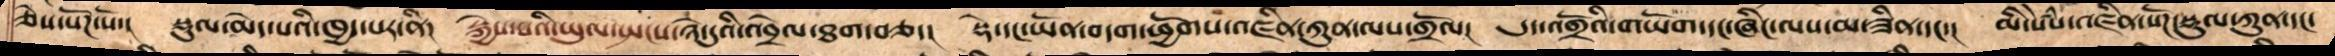ཅེས་སོཌ་སོ་།  སྡུལ་མེད་པའི་ཁྱད་པར་ནི།  སྐྱེས་པའི་ཡུལ་སྤངས་ཉེ་དུའི་འབྲེལ་ཐག་བཅད།  སྡེ་དང་ཡོན་བདག་ཕྱོགས་འཛིན་ཀུན་ལས་གྲོལ།  དུད་འགྲོའི་གཡོག་དང་ཞིང་ལས་མ་ཟིན་དང་།  མི་སེཾས་འཛིན་སོཌ་སྡུལ་ཀུན་དང་
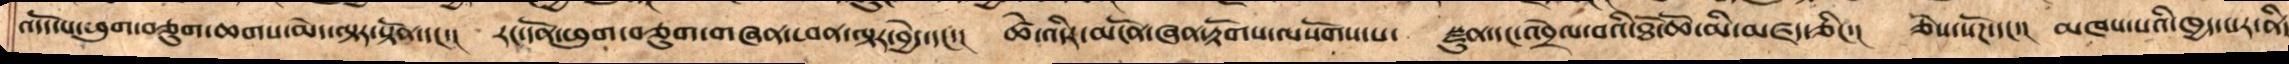འདོད་པ་ཕུག་བཅུག་ཆགས་མེད་ལྟར་སྟོན་དང་།  རང་དོན་ཕུག་བཅུག་གཞན་ཕན་ལྟར་བྱེད་དང་།   ཚེ་འདིར་མངོན་ཞན་རྟོགས་ལ་སོགས་པ།   སྫུན་དང་འབྲེལ་བའི་ཐོ་ཅོ་མི་མཛད་ཅིང་།  ཅེས་སོཌ་དང་།  མཁས་པའི་ཁྱད་པར་ནི།
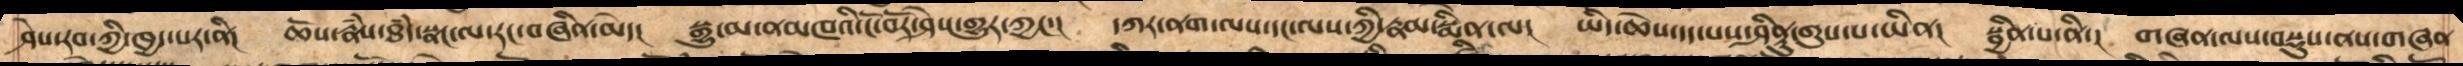ཤེས་རབ་ཀྱི་ཁྱད་པར་ནི། ཆོས་རྣྃས་ཐྃད་སྣང་ལ་རང་བཞིན་མེད།  སྒྱུ་མ་ནམམཁའི་ངོ་བོར་ཤེས་གྱུར་ཀྱང་།  དཀར་ནག་ལས་དང་ལས་ཀྱི་རྣམ་སྨིན་ལ།  ཡིད་ཆེས་དད་པས་ཤིནྟུ་གུས་པ་ཡིན།   སྦྱིན་པ་ནི།  གཞན་ལས་བསྡུས་ནས་གཞན
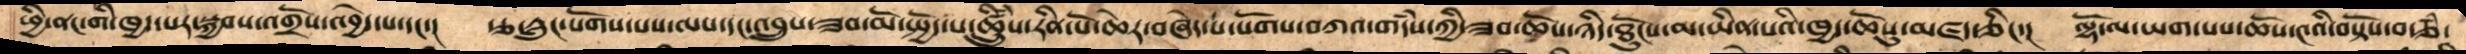ཕྱི་ནང་གི་ཁྱད་པར་སྐྱབས་འགྲོས་འབྱེད་པ་དང་།  རྩ་རླུང་སོགས་པས་ལས་དང་འབྲུས་ཟབ་མོ་སྤྱོད་པ་ཚྲིུཾས་རིན་པོ་ཆེར་བཞེད་པ་སོགས་བཀའ་གདཾས་ཀྱི་ཟབ་ཆོས་ཉིད་ཐོུངས་མ་ཡིན་པའི་ཁྱད་ཆོསུ་མཛད་ཅིང་།   ལྷོ་ལ་ཡག་པས་ཆོས་༤འི་བསྟོས་བ་ཙཾ་
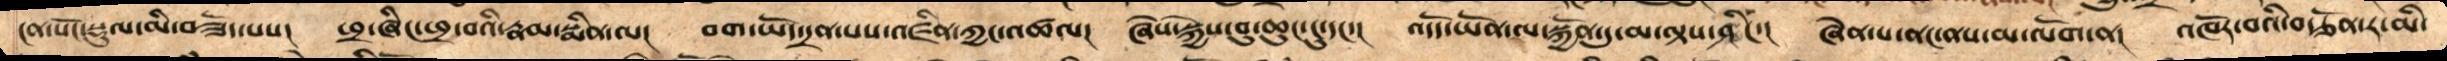ངན་སོང་སྡུལ་མི་བཟོད་པས།  ཕྲ་ཞིང་ཕྲ་བའི་རྣམ་སྨིན་ལ།   བག་ཡོད་དྲན་པས་ཟིན་ཀྱང་འཚལ།   ཞེས་སྐྱེས་བུ་ཆུང་ངུ་དང་།  འདོད་ཡོན་ལ་སྐྱོན་དུ་མ་ལྟས་ཤིང་།  ཞེན་པ་ནང་ནས་མ་ལོག་ན།  འཁོར་བའི་བརྩོན་ར་མི་
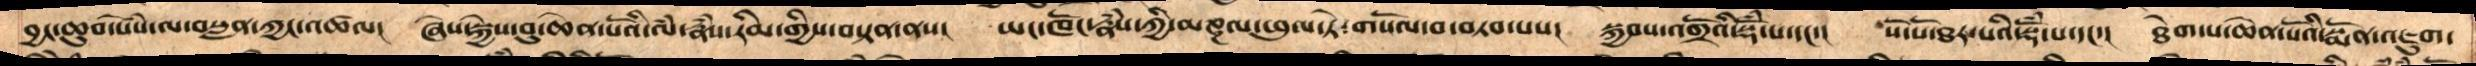བྱང་ཆུབ་སེཾས་ལ་བསླན་ཀྱང་འཚལ།    ཞེས་སྐྱེས་བུ་ཆེན་པོའི་ལཾ་རྣཾས་རིམ་གྱིས་བསྟན་ནས།    ཡང་ཁོང་རྣཾས་ཀྱི་མཎྜལ་ཕུལ་ཏེ་གསོལ་བ་བཏབ་པས།    སྐྱབས་འགྲོའི་སྡོཾ་པ་དང་།    སོ་སོ་ཐར་པའི་སྡོཾ་པ་དང་།   ཐེག་པ་ཆེན་པོའི་སྨོན་འཇུག་
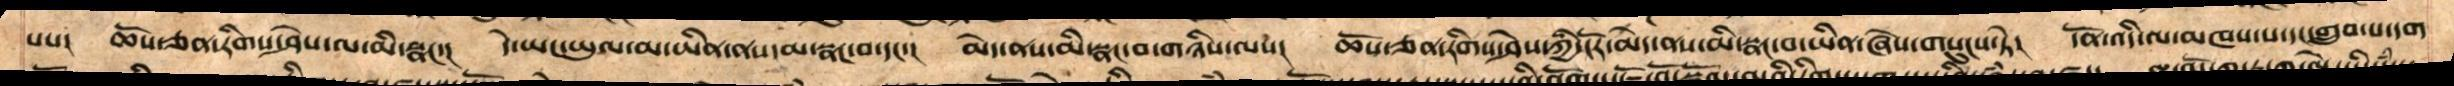པས།   ཆོས་ཅན་རིགས་ཤེས་ལ་མི་སྣང་།   དེ་ཡང་ཡུལ་མ་ཡིན་ནས་མི་སྣང་བ་དང་།   མེད་ནས་མི་སྣང་བ་གཉིས་ལས།   ཆོས་ཅན་རིག་ཤེས་ཀྱི་ངོར་མེད་ནས་མི་སྣང་བ་ཡིན་ཞེས་གསུངས་ཏེ།  དོན་འདི་ལ་མཁས་པ་དང་གྲུབ་པ་དག
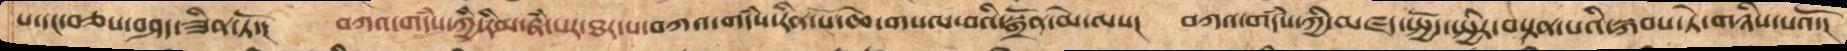པ་དང་བཅས་པ་བཤད་ཟིན་ཏོ་།   བཀའ་གདཾས་ཀྱི་རིམ་རྣཾ་པར་ཐར་པ་བཀའ་གདཾས་རིན་པོ་ཆེ་གསལ་བའི་སྒྲོན་མེ་ལས།   བཀའ་གདཾས་ཀྱི་མཛད་སྤྱོད་སྤྱིར་བསྟན་པའི་སྐབས་ཏེ་གཉིས་པའོ་།
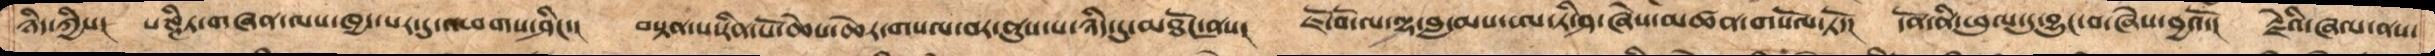ཉིད་ཀྱིས།   པཎྜིཏ་གཞན་ལས་ཁྱད་པར་དུ་འཕགས་ཤིང་།   བསྟན་པ་རིན་པོ་ཆེས་ཆེར་གསལ་བར་ནུས་པ་ཉིད་དུ་མཐོང་ནས།   ཇོ་བོ་ལ་ལྷ་བླ་མས་ཨ་ཏི་ཤ་ཞེས་མཚན་གསོལ་ཏེ་།   དོན་ནི་ཕུལ་དུ་བྱུང་བ་ཞེས་བྱ་བའོ།  རྗེའི་ཞལ་ནས་
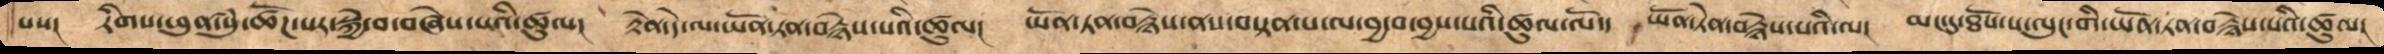པས།  རིགས་ཕུན་སུཾ་ཚོགས་པར་སྐྱེ་བ་བཞེས་པའི་ཚུལ།   རྟེན་དེ་ལ་ཡོན་ཏན་བརྙེས་པའི་ཚུལ།  ཡོན་ཏན་བརྙེས་ནས་བསྟན་པ་ལ་བྱ་བ་བྱས་པའི་ཚུལ་ལོ།   ཡོན་ཏེན་བརྙེས་པའི་ལ།  མང་དུ་ཐོས་པ་ལུང་གི་ཡོན་ཏན་བརྙེས་པའི་ཚུལ།
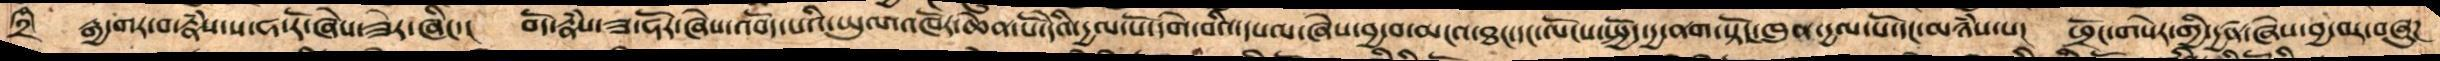༼༢༽ རྒྱ་གར་བ་རྣཾས་ས་ཧ་རོ་ཞེས་ཟེར་ཞིང་།    བོད་རྣཾས་ཟ་ཧོར་ཞེས་འབོད་པའི་ཡུལ་འཁོར་ཆེན་པོ་དེའི་དྱལ་པོ་དགེ་བའི་དཔལ་ཞེས་བྱ་བ་མངའ་ཐང་དང་ལོངས་སྤྱོད་དྱ་ནག་སྟོང་ཁུན་རྒྱལ་པོ་དང་མཉཾས་པ།  ཕྲོང་གསེར་གྱི་དྱཚན་ཞེས་བྱ་བར་བཞུཌ
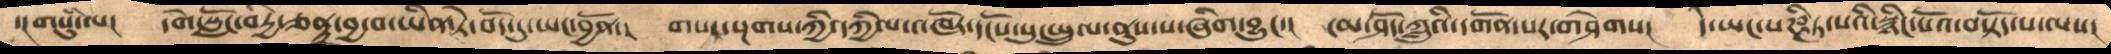་།གསུཾ་པ།  དགེ་སློང་བིརྱ་ཙཎྡྲ་བྱ་བ་ཡིན་ཏེ་བོད་དུ་ཡང་བྱོན་།   གསང་སྔགས་ཀྱི་དཀྱིལ་འཁོར་དངོས་སུ་སྤྲུལ་ནུས་པ་ཞིག་བྱུང་།  ངམ་ཤོད་ཀླུའི་དགོན་པར་གཤེགས།   དེ་ཡང་པཎྜིཏ་སའི་སྙིང་པོའ་བསྟོད་པ་ལས།
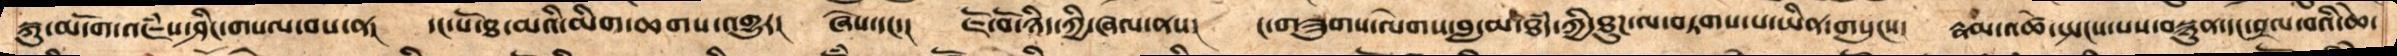སྐུ་མདོག་འཇཾས་ཤིང་གསལ་བས་ན།    དང་པོ་ཐ་མའི་མིག་ཆགས་འགྱུར།    ཞེས་དང་།    ཇོ་བོ་ཉིད་ཀྱི་ཞལ་ནས།    ང་གཟུགས་ལེགས་བླ་མ་ཐཾད་ཀྱི་ཐུཌ་ལ་བཏགས་པ་ཡིན་གསུངས།    རྣམ་འཚེ་སྤངས་པས་བསྙུན་དང་བྲལ་བའི་ཆེ་
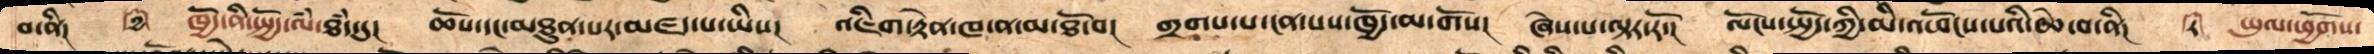བ་ནི། ༼༧ ༽ ཁྱོད་ནི་སྤྱོད་ལཾ་ཐཾད་དུ།   ཆོས་དང་མཐུན་པར་མཛད་པཡིས།   འཇིག་རྟེན་ཁ་ན་མ་ཐོ་བ།  གྲགས་པ་ངན་པས་ཁྱོད་མ་གོས།  ཞེས་པ་ལྟར་རོ།  ལོངས་སྤྱོད་ཀྱི་མི་འཕོངས་པའི་ཆེ་བ་ནི། ༼༨༽ ཡུལ་ཕྱོགས་
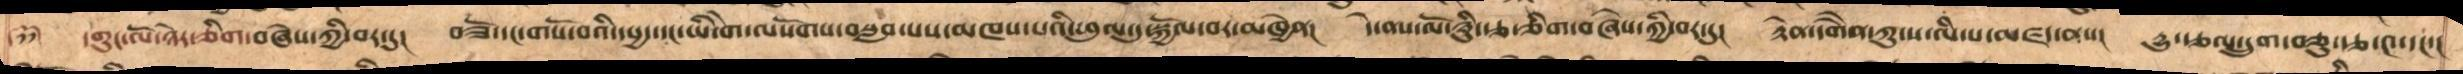༼༡༡༽  དགུང་ལོ་ཉེར་ཅིག་བཞེས་ཀྱི་བར་དུ།  བཟོ་དང་གསོ་བའི་དཔྱད་དང་ཡི་གེ་ལསོགས་བསླབ་པས་མཁས་པའི་ཕུལ་དུ་སྐྱོལ་བར་མཁྱེན།   དེ་ནས་ལོ་ཉིུ་རྩ་ཅིག་བཞེས་ཀྱི་བར་དུ།  རྟེན་དགཻན་ཀུ་ས་ལི་པ་མཛད་ནས།  དྱུ་རྩལ་དྲུག་བཅུ་རྩ་༤་དང་།
